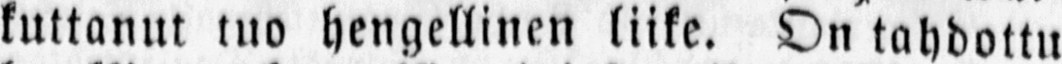kuttanut tuo hengellinen liike. On tahdottu
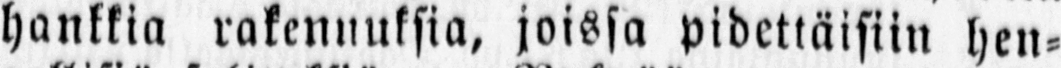hanttia rakennuksia, joissa pidettäisiin hen-
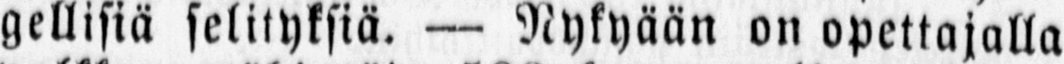gellisiä selityksiä. — Nykyään on opettajalla
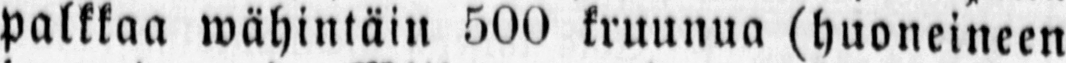palkkaa wähintäin 500 kruunua (huoneineen
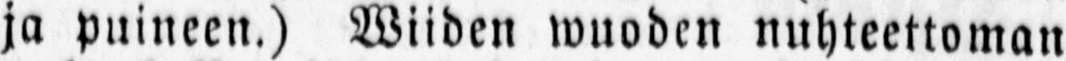ja puineen.) Wiiden wuoden nuhteettoman
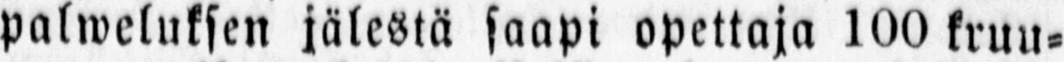palweluksen jälestä saapi opettaja 100 kruu-
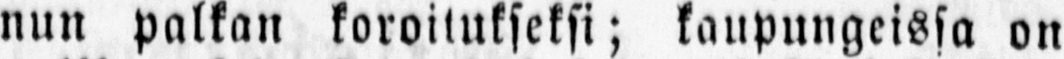nun palkan koroitukseksi; kaupungeissa on
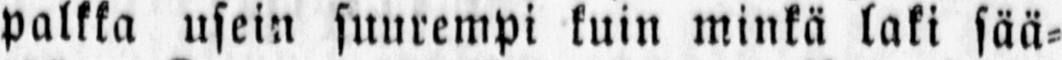palkka usein suurempi kuin minkä laki sää-
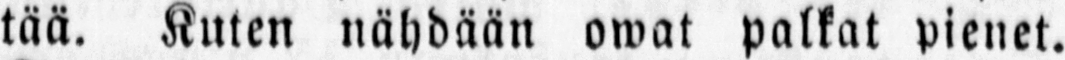tää. Kuten nähdään owat palkat pienet.
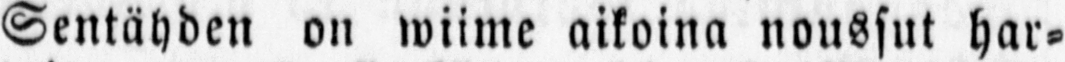Sentähden on wiime aikoina noussut har-
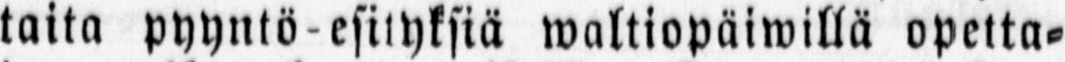taita pyyntö-esityksiä waltiopäiwillä opetta-
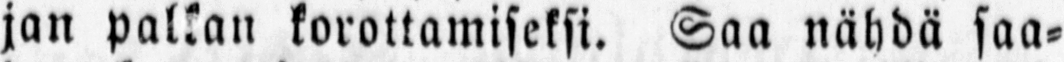jan palkan korottamiseksi. Saa nähdä saa-
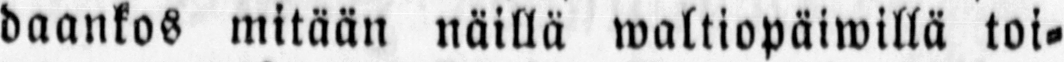daankos mitään näillä waltiopäiwillä toi-
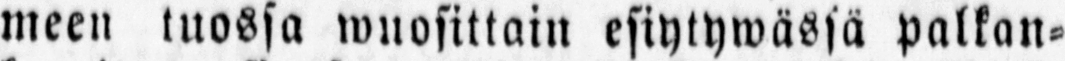meen tuossa wuosittain esiytywässä palkan-
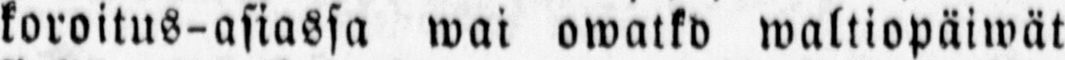koroitus-asiassa wai owatko waltiopäiwät
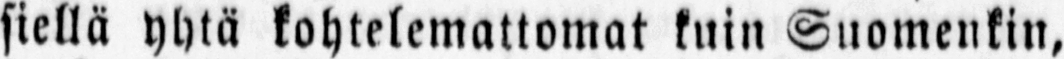siellä yhtä kohtelemattomat kuin Suomenkin,
